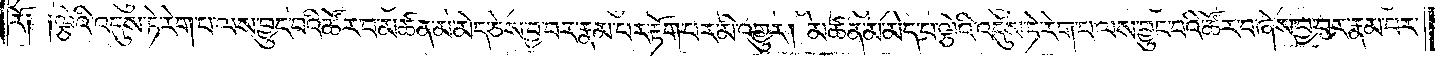རོ༏ ༏ལྕེའི་འདུས་ཏེ་རེག་པ་ལས་བྱུང་བའི་ཚོར་བ་མཚན་མ་མེད་ཅེས་བྱ་བར་རྣམ་པར་རྟོག་པར་མི་འགྱུར། མཚན་མ་མེད་པ་ལྕེའི་འདུས་ཏེ་རེག་པ་ལས་བྱུང་བའི་ཚོར་བ་ཞེས་བྱ་བར་རྣམ་པར་
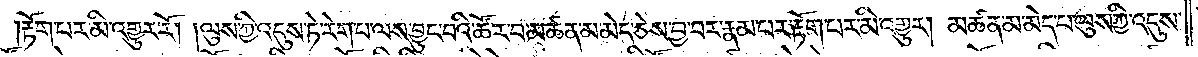རྟོག་པར་མི་འགྱུར་རོ། །ལུས་ཀྱི་འདུས་ཏེ་རེག་པ་ལས་བྱུང་བའི་ཚོར་བ་མཚན་མ་མེད་ཅེས་བྱ་བར་རྣམ་པར་རྟོག་པར་མི་འགྱུར། མཚན་མ་མེད་པ་ལུས་ཀྱི་འདུས་
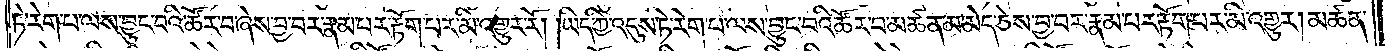ཏེ་རེག་པ་ལས་བྱུང་བའི་ཚོར་བ་ཞེས་བྱ་བར་རྣམ་པར་རྟོག་པར་མི་འགྱུར་རོ། །ཡིད་ཀྱི་འདུས་ཏེ་རེག་པ་ལས་བྱུང་བའི་ཚོར་བ་མཚན་མ་མེད་ཅེས་བྱ་བར་རྣམ་པར་རྟོག་པར་མི་འགྱུར། མཚན་
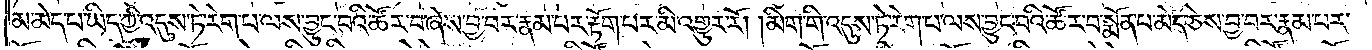མ་མེད་པ་ཡིད་ཀྱི་འདུས་ཏེ་རེག་པ་ལས་བྱུང་བའི་ཚོར་བ་ཞེས་བྱ་བར་རྣམ་པར་རྟོག་པར་མི་འགྱུར་རོ། །མིག་གི་འདུས་ཏེ་རེག་པ་ལས་བྱུང་བའི་ཚོར་བ་སྨོན་པ་མེད་ཅེས་བྱ་བར་རྣམ་པར་
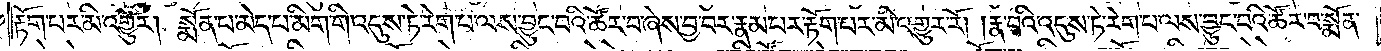རྟོག་པར་མི་འགྱུར། སྨོན་པ་མེད་པ་མིག་གི་འདུས་ཏེ་རེག་པ་ལས་བྱུང་བའི་ཚོར་བ་ཞེས་བྱ་བར་རྣམ་པར་རྟོག་པར་མི་འགྱུར་རོ། །རྣ་བའི་འདུས་ཏེ་རེག་པ་ལས་བྱུང་བའི་ཚོར་བ་སྨོན་
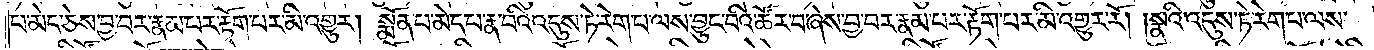པ་མེད་ཅེས་བྱ་བར་རྣམ་པར་རྟོག་པར་མི་འགྱུར། སྨོན་པ་མེད་པ་རྣ་བའི་འདུས་ཏེ་རེག་པ་ལས་བྱུང་བའི་ཚོར་བ་ཞེས་བྱ་བར་རྣམ་པར་རྟོག་པར་མི་འགྱུར་རོ། །སྣའི་འདུས་ཏེ་རེག་པ་ལས་
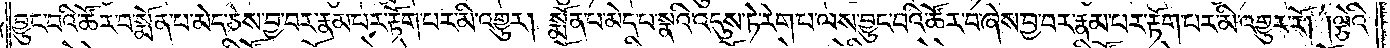བྱུང་བའི་ཚོར་བ་སྨོན་པ་མེད་ཅེས་བྱ་བར་རྣམ་པར་རྟོག་པར་མི་འགྱུར། སྨོན་པ་མེད་པ་སྣའི་འདུས་ཏེ་རེག་པ་ལས་བྱུང་བའི་ཚོར་བ་ཞེས་བྱ་བར་རྣམ་པར་རྟོག་པར་མི་འགྱུར་རོ། །ལྕེའི་
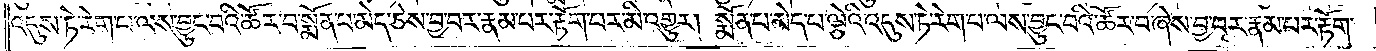འདུས་ཏེ་རེག་པ་ལས་བྱུང་བའི་ཚོར་བ་སྨོན་པ་མེད་ཅེས་བྱ་བར་རྣམ་པར་རྟོག་པར་མི་འགྱུར། སྨོན་པ་མེད་པ་ལྕེའི་འདུས་ཏེ་རེག་པ་ལས་བྱུང་བའི་ཚོར་བ་ཞེས་བྱ་བར་རྣམ་པར་རྟོག་
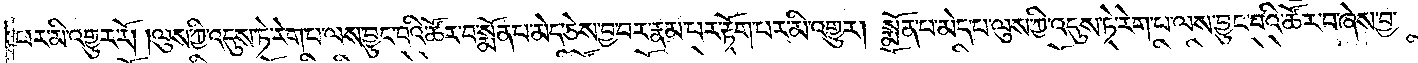པར་མི་འགྱུར་རོ། །ལུས་ཀྱི་འདུས་ཏེ་རེག་པ་ལས་བྱུང་བའི་ཚོར་བ་སྨོན་པ་མེད་ཅེས་བྱ་བར་རྣམ་པར་རྟོག་པར་མི་འགྱུར། སྨོན་པ་མེད་པ་ལུས་ཀྱི་འདུས་ཏེ་རེག་པ་ལས་བྱུང་བའི་ཚོར་བ་ཞེས་བྱ་
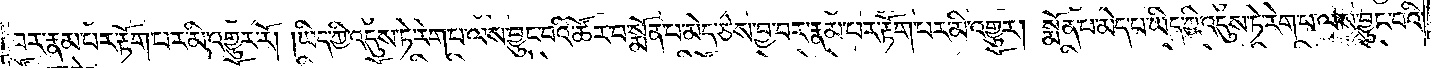བར་རྣམ་པར་རྟོག་པར་མི་འགྱུར་རོ། །ཡིད་ཀྱི་འདུས་ཏེ་རེག་པ་ལས་བྱུང་བའི་ཚོར་བ་སྨོན་པ་མེད་ཅེས་བྱ་བར་རྣམ་པར་རྟོག་པར་མི་འགྱུར། སྨོན་པ་མེད་པ་ཡིད་ཀྱི་འདུས་ཏེ་རེག་པ་ལས་བྱུང་བའི་
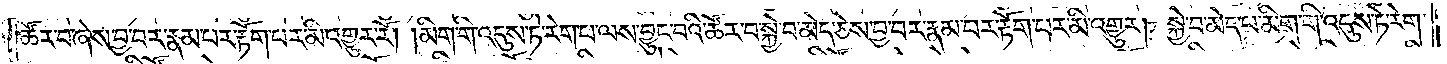ཚོར་བ་ཞེས་བྱ་བར་རྣམ་པར་རྟོག་པར་མི་འགྱུར་རོ། །མིག་གི་འདུས་ཏེ་རེག་པ་ལས་བྱུང་བའི་ཚོར་བ་སྐྱེ་བ་མེད་ཅེས་བྱ་བར་རྣམ་པར་རྟོག་པར་མི་འགྱུར། སྐྱེ་བ་མེད་པ་མིག་གི་འདུས་ཏེ་རེག་
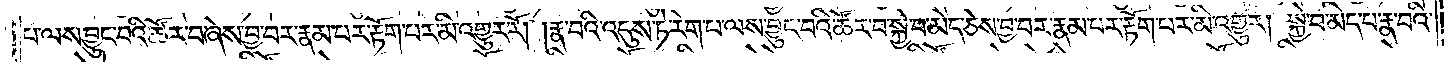པ་ལས་བྱུང་བའི་ཚོར་བ་ཞེས་བྱ་བར་རྣམ་པར་རྟོག་པར་མི་འགྱུར་རོ། །རྣ་བའི་འདུས་ཏེ་རེག་པ་ལས་བྱུང་བའི་ཚོར་བ་སྐྱེ་བ་མེད་ཅེས་བྱ་བར་རྣམ་པར་རྟོག་པར་མི་འགྱུར། སྐྱེ་བ་མེད་པ་རྣ་བའི་
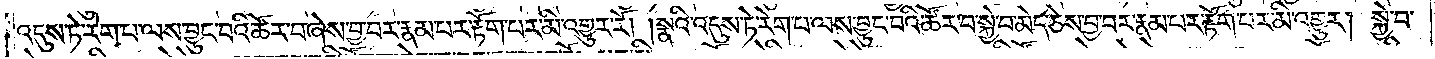འདུས་ཏེ་རེག་པ་ལས་བྱུང་བའི་ཚོར་བ་ཞེས་བྱ་བར་རྣམ་པར་རྟོག་པར་མི་འགྱུར་རོ། །སྣའི་འདུས་ཏེ་རེག་པ་ལས་བྱུང་བའི་ཚོར་བ་སྐྱེ་བ་མེད་ཅེས་བྱ་བར་རྣམ་པར་རྟོག་པར་མི་འགྱུར། སྐྱེ་བ་
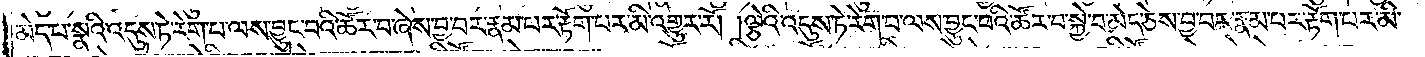མེད་པ་སྣའི་འདུས་ཏེ་རེག་པ་ལས་བྱུང་བའི་ཚོར་བ་ཞེས་བྱ་བར་རྣམ་པར་རྟོག་པར་མི་འགྱུར་རོ། །ལྕེའི་འདུས་ཏེ་རེག་པ་ལས་བྱུང་བའི་ཚོར་བ་སྐྱེ་བ་མེད་ཅེས་བྱ་བར་རྣམ་པར་རྟོག་པར་མི་
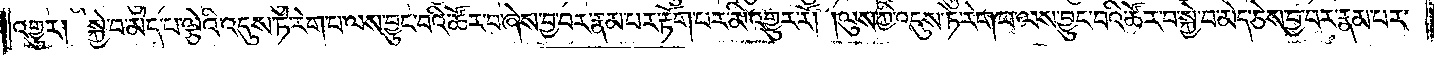འགྱུར། སྐྱེ་བ་མེད་པ་ལྕེའི་འདུས་ཏེ་རེག་པ་ལས་བྱུང་བའི་ཚོར་བ་ཞེས་བྱ་བར་རྣམ་པར་རྟོག་པར་མི་འགྱུར་རོ། །ལུས་ཀྱི་འདུས་ཏེ་རེག་པ་ལས་བྱུང་བའི་ཚོར་བ་སྐྱེ་བ་མེད་ཅེས་བྱ་བར་རྣམ་པར་
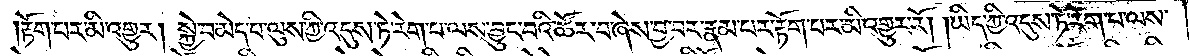རྟོག་པར་མི་འགྱུར། སྐྱེ་བ་མེད་པ་ལུས་ཀྱི་འདུས་ཏེ་རེག་པ་ལས་བྱུང་བའི་ཚོར་བ་ཞེས་བྱ་བར་རྣམ་པར་རྟོག་པར་མི་འགྱུར་རོ། །ཡིད་ཀྱི་འདུས་ཏེ་རེག་པ་ལས་
